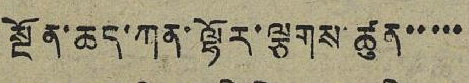སྔོན་ཆད་ཀན་ལྷོར་ལྕགས་ཚུན་་་་་
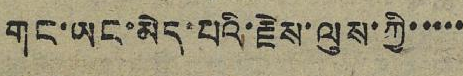གང་ཡང་མེད་པའི་རྗེས་ལུས་ཀྱི་་་་་
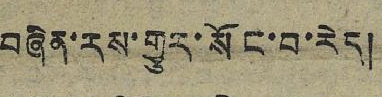བཞིན་རས་གྱུར་སོང་བ་རེད།
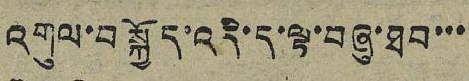འགུལ་བསྐྱོད་འདི་ད་ལྟ་བཞུ་ཐབ་་་
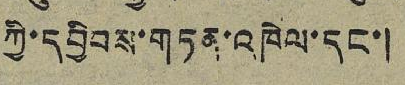ཀྱི་དབྱིབས་གཏན་འཁེལ་དང་།
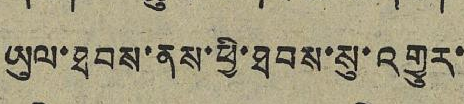ཡུལ་ཐབས་ནས་ཕྱི་ཐབས་སུ་འགྱུར་
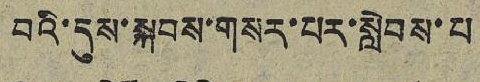བའི་དུས་སྐབས་གསར་པར་སླེབས་པ
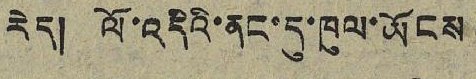རེད། ལོ་འདིའི་ནང་དུ་ཁུལ་ཡོངས
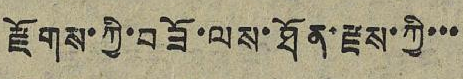རྫོགས་ཀྱི་བཟོ་ལས་ཐོན་རྫས་ཀྱི་་་
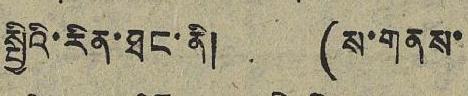སྤྱི་རིན་ཐང་ནི། (ས་གནས་
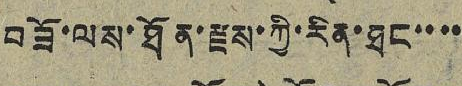བཟོ་ལས་ཐོན་རྫས་ཀྱི་རིན་ཐང་་་་
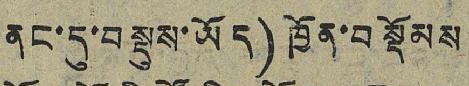ནང་དུ་བསྡུས་ཡོད) ཁྱོན་བསྡོམས
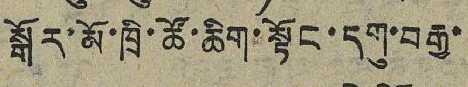སྒོར་མོ་ཁྲི་ཚོ་ཆིག་སྟོང་དགུ་བརྒྱ་
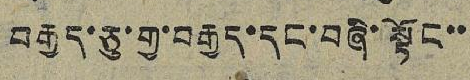བརྒྱད་ཅུ་གྱ་བརྒྱད་དང་བཞི་སྟོང་་
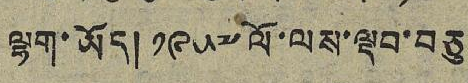ལྷག་ཡོད། ༡༩༥༧ ལོ་ལས་ལྡབ་བཅུ
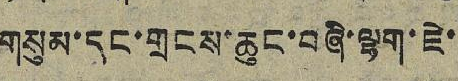གསུམ་དང་གྲངས་ཆུང་བཞི་ལྷག་ཇེ་
